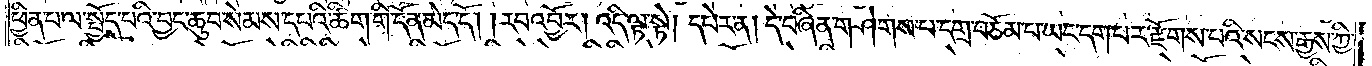ཕྱིན་པ་ལ་སྤྱོད་པའི་བྱང་ཆུབ་སེམས་དཔའི་ཚིག་གི་དོན་མེད་དོ། །རབ་འབྱོར། འདི་ལྟ་སྟེ། དཔེར་ན། དེ་བཞིན་གཤེགས་པ་དགྲ་བཅོམ་པ་ཡང་དག་པར་རྫོགས་པའི་སངས་རྒྱས་ཀྱི་
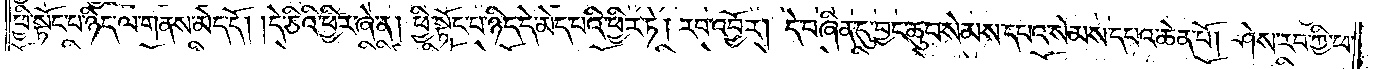ཕྱི་སྟོང་པ་ཉིད་ལ་གནས་མེད་དོ། །དེ་ཅིའི་ཕྱིར་ཞེ་ན། ཕྱི་སྟོང་པ་ཉིད་དེ་མེད་པའི་ཕྱིར་ཏེ། རབ་འབྱོར། དེ་བཞིན་དུ་བྱང་ཆུབ་སེམས་དཔའ་སེམས་དཔའ་ཆེན་པོ། ཤེས་རབ་ཀྱི་ཕ་
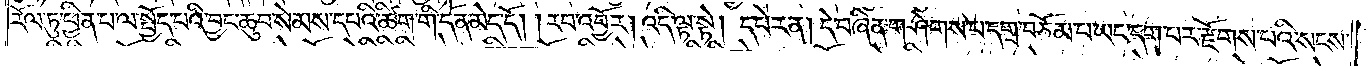རོལ་ཏུ་ཕྱིན་པ་ལ་སྤྱོད་པའི་བྱང་ཆུབ་སེམས་དཔའི་ཚིག་གི་དོན་མེད་དོ། །རབ་འབྱོར། འདི་ལྟ་སྟེ། དཔེར་ན། དེ་བཞིན་གཤེགས་པ་དགྲ་བཅོམ་པ་ཡང་དག་པར་རྫོགས་པའི་སངས་
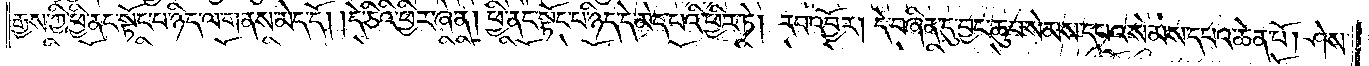རྒྱས་ཀྱི་ཕྱི་ནང་སྟོང་པ་ཉིད་ལ་གནས་མེད་དོ། །དེ་ཅིའི་ཕྱིར་ཞེ་ན། ཕྱི་ནང་སྟོང་པ་ཉིད་དེ་མེད་པའི་ཕྱིར་ཏེ། རབ་འབྱོར། དེ་བཞིན་དུ་བྱང་ཆུབ་སེམས་དཔའ་སེམས་དཔའ་ཆེན་པོ། ཤེས་
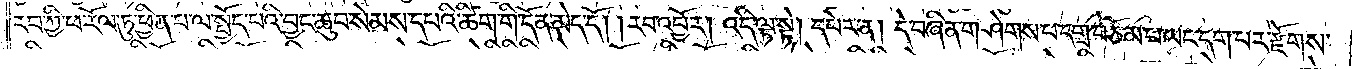རབ་ཀྱི་ཕ་རོལ་ཏུ་ཕྱིན་པ་ལ་སྤྱོད་པའི་བྱང་ཆུབ་སེམས་དཔའི་ཚིག་གི་དོན་མེད་དོ། །རབ་འབྱོར། འདི་ལྟ་སྟེ། དཔེར་ན། དེ་བཞིན་གཤེགས་པ་དགྲ་བཅོམ་པ་ཡང་དག་པར་རྫོགས་
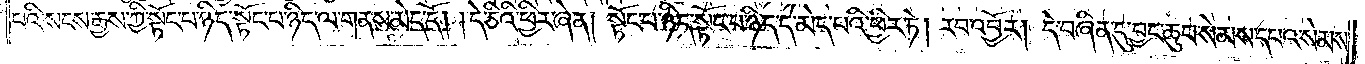པའི་སངས་རྒྱས་ཀྱི་སྟོང་པ་ཉིད་སྟོང་པ་ཉིད་ལ་གནས་མེད་དོ། །དེ་ཅིའི་ཕྱིར་ཞེ་ན། སྟོང་པ་ཉིད་སྟོང་པ་ཉིད་དེ་མེད་པའི་ཕྱིར་ཏེ། རབ་འབྱོར། དེ་བཞིན་དུ་བྱང་ཆུབ་སེམས་དཔའ་སེམས་
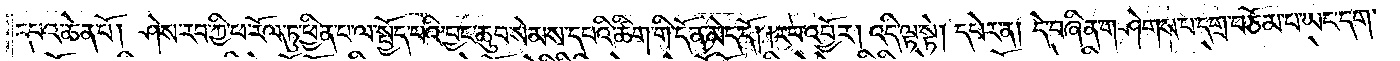དཔའ་ཆེན་པོ། ཤེས་རབ་ཀྱི་ཕ་རོལ་ཏུ་ཕྱིན་པ་ལ་སྤྱོད་པའི་བྱང་ཆུབ་སེམས་དཔའི་ཚིག་གི་དོན་མེད་དོ། །རབ་འབྱོར། འདི་ལྟ་སྟེ། དཔེར་ན། དེ་བཞིན་གཤེགས་པ་དགྲ་བཅོམ་པ་ཡང་དག་
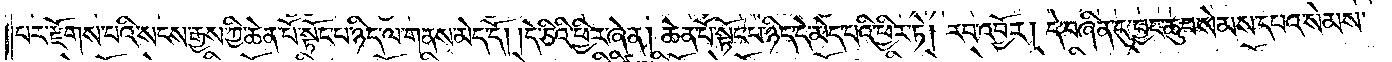པར་རྫོགས་པའི་སངས་རྒྱས་ཀྱི་ཆེན་པོ་སྟོང་པ་ཉིད་ལ་གནས་མེད་དོ། །དེ་ཅིའི་ཕྱིར་ཞེ་ན། ཆེན་པོ་སྟོང་པ་ཉིད་དེ་མེད་པའི་ཕྱིར་ཏེ། རབ་འབྱོར། དེ་བཞིན་དུ་བྱང་ཆུབ་སེམས་དཔའ་སེམས་
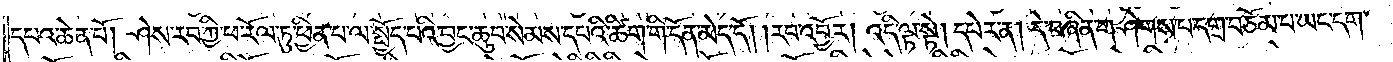དཔའ་ཆེན་པོ། ཤེས་རབ་ཀྱི་ཕ་རོལ་ཏུ་ཕྱིན་པ་ལ་སྤྱོད་པའི་བྱང་ཆུབ་སེམས་དཔའི་ཚིག་གི་དོན་མེད་དོ། །རབ་འབྱོར། འདི་ལྟ་སྟེ། དཔེར་ན། དེ་བཞིན་གཤེགས་པ་དགྲ་བཅོམ་པ་ཡང་དག་
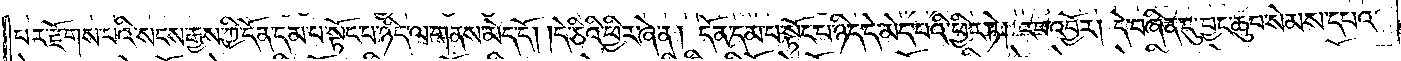པར་རྫོགས་པའི་སངས་རྒྱས་ཀྱི་དོན་དམ་པ་སྟོང་པ་ཉིད་ལ་གནས་མེད་དོ། །དེ་ཅིའི་ཕྱིར་ཞེ་ན། དོན་དམ་པ་སྟོང་པ་ཉིད་དེ་མེད་པའི་ཕྱིར་ཏེ། རབ་འབྱོར། དེ་བཞིན་དུ་བྱང་ཆུབ་སེམས་དཔའ་
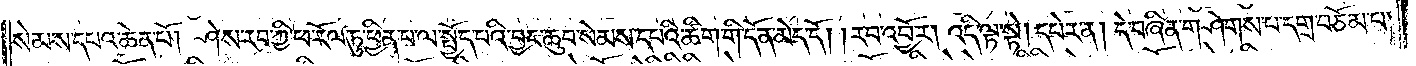སེམས་དཔའ་ཆེན་པོ། ཤེས་རབ་ཀྱི་ཕ་རོལ་ཏུ་ཕྱིན་པ་ལ་སྤྱོད་པའི་བྱང་ཆུབ་སེམས་དཔའི་ཚིག་གི་དོན་མེད་དོ། །རབ་འབྱོར། འདི་ལྟ་སྟེ། དཔེར་ན། དེ་བཞིན་གཤེགས་པ་དགྲ་བཅོམ་པ་
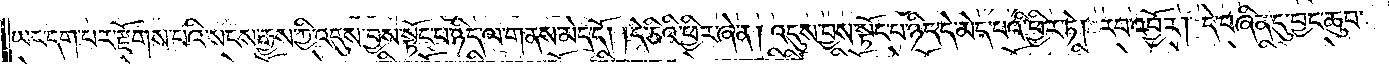ཡང་དག་པར་རྫོགས་པའི་སངས་རྒྱས་ཀྱི་འདུས་བྱས་སྟོང་པ་ཉིད་ལ་གནས་མེད་དོ། །དེ་ཅིའི་ཕྱིར་ཞེ་ན། འདུས་བྱས་སྟོང་པ་ཉིད་དེ་མེད་པའི་ཕྱིར་ཏེ། རབ་འབྱོར། དེ་བཞིན་དུ་བྱང་ཆུབ་
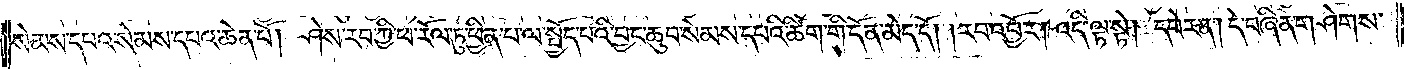སེམས་དཔའ་སེམས་དཔའ་ཆེན་པོ། ཤེས་རབ་ཀྱི་ཕ་རོལ་ཏུ་ཕྱིན་པ་ལ་སྤྱོད་པའི་བྱང་ཆུབ་སེམས་དཔའི་ཚིག་གི་དོན་མེད་དོ། །རབ་འབྱོར། འདི་ལྟ་སྟེ། དཔེར་ན། དེ་བཞིན་གཤེགས་
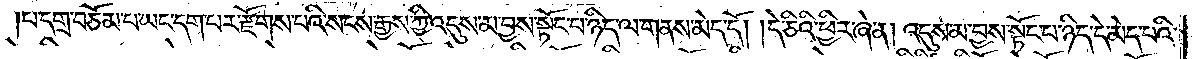པ་དགྲ་བཅོམ་པ་ཡང་དག་པར་རྫོགས་པའི་སངས་རྒྱས་ཀྱི་འདུས་མ་བྱས་སྟོང་པ་ཉིད་ལ་གནས་མེད་དོ། །དེ་ཅིའི་ཕྱིར་ཞེ་ན། འདུས་མ་བྱས་སྟོང་པ་ཉིད་དེ་མེད་པའི་
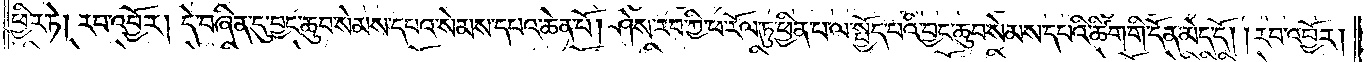ཕྱིར་ཏེ། རབ་འབྱོར། དེ་བཞིན་དུ་བྱང་ཆུབ་སེམས་དཔའ་སེམས་དཔའ་ཆེན་པོ། ཤེས་རབ་ཀྱི་ཕ་རོལ་ཏུ་ཕྱིན་པ་ལ་སྤྱོད་པའི་བྱང་ཆུབ་སེམས་དཔའི་ཚིག་གི་དོན་མེད་དོ། །རབ་འབྱོར།
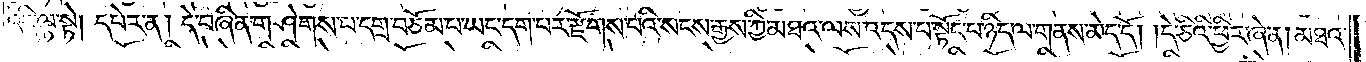འདི་ལྟ་སྟེ། དཔེར་ན། དེ་བཞིན་གཤེགས་པ་དགྲ་བཅོམ་པ་ཡང་དག་པར་རྫོགས་པའི་སངས་རྒྱས་ཀྱི་མཐའ་ལས་འདས་པ་སྟོང་པ་ཉིད་ལ་གནས་མེད་དོ། །དེ་ཅིའི་ཕྱིར་ཞེ་ན། མཐའ་
